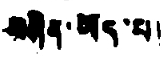བཞིན་ཡོད་པ།
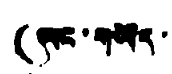(ཡང་གཡོད་
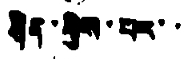ཤིན་གྱིས་པར་་
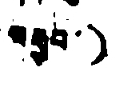བརྒྱབ་)
